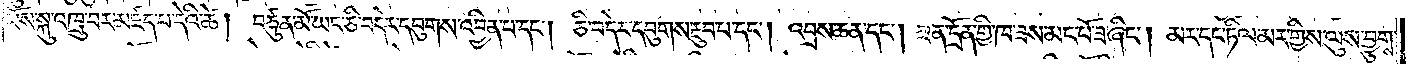པོས་སྐུ་འཁྲུ་བར་མཛད་པ་དེའི་ཚེ། བཙུན་མོ་ཡང་ཅི་བདེར་དབུགས་འབྱིན་པ་དང༌། ཅི་བདེར་དབུགས་རྔུབ་པ་དང༌། འབྲས་ཆན་དང༌། ཟན་དྲོན་གྱི་ཁ་ཟས་མང་པོ་ཟ་ཞིང༌། མར་དང་ཏིལ་མར་གྱིས་ལུས་བྱུགས་
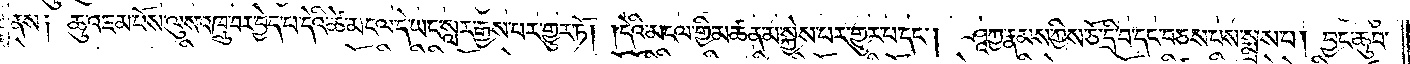ནས༑ ཆུ་འཇམ་པོས་ལུས་འཁྲུ་བར་བྱེད་པ་དེའི་ཚེ་མངལ་དེ་ཡང་སླར་རྒྱས་པར་གྱུར་ཏོ། །དེའི་མངལ་གྱི་མཚན་མ་སྐྱེས་པར་གྱུར་པ་དང༌། ཤཱཀྱ་རྣམས་ཀྱིས་ཅོ་དྲི་བ་དང་བཅས་པས་སྨྲས་པ། བྱང་ཆུབ་
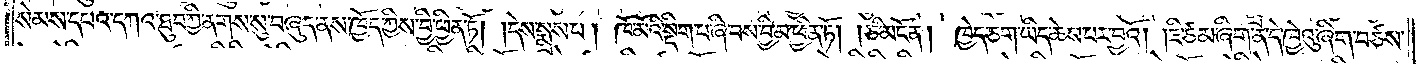སེམས་དཔའ་དཀའ་ཐུབ་ཀྱི་ནགས་སུ་བཞུད་ནས་ཁྱོད་ཀྱིས་བྱི་ཕྱིན་ཏོ། །དེས་སྨྲས་པ། ཁོ་མོའི་སྡིག་པ་ཞི་བས་བྱི་མ་ཕྱིན་ཏོ། །ཅི་མངོན། ཁྱེད་ཅག་ཡིད་ཆེས་པར་བྱའོ། །ཇི་ཙམ་ཞིག་ན་དེ་ཁྱེའུ་ཞིག་བཙས་
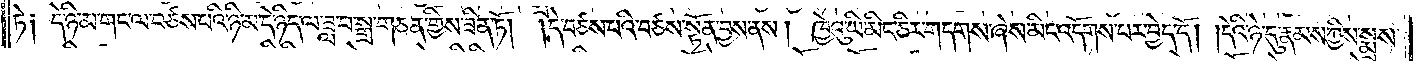ཏེ། དེ་ཉི་མ་གང་ལ་བཙས་པའི་ཉི་མ་དེ་ཉིད་ལ་ཟླ་བ་སྒྲ་གཅན་གྱིས་ཟིན་ཏོ། །དེ་བཙས་པའི་བཙས་སྟོན་བྱས་ནས། ཁྱེའུ་ཡི་མིང་ཅིར་གདགས་ཞེས་མིང་འདོགས་པར་བྱེད་དོ། །དེའི་ཉེ་དུ་རྣམས་ཀྱིས་སྨྲས་
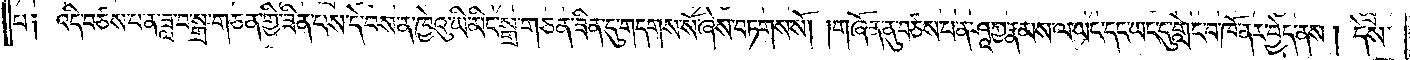པ། འདི་བཙས་པ་ན་ཟླ་བ་སྒྲ་གཅན་གྱི་ཟིན་པས་དེ་བས་ན་ཁྱེའུ་ཡི་མིང་སྒྲ་གཅན་ཟིན་དུ་གདགས་སོ་ཞེས་བཏགས་སོ། །གཞོན་ནུ་བཙས་པ་ན་ཤཱཀྱ་རྣམས་ལ་ཡང་དང་ཡང་དུ་གླེང་བ་ཁོ་ནར་བྱེད་ནས། དེས་
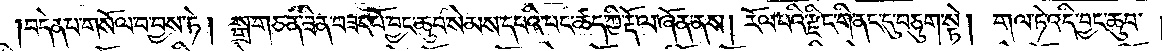བདེན་པ་གསོལ་བ་བྱས་ཏེ། སྒྲ་གཅན་ཟིན་བཟང་པོ་བྱང་ཆུབ་སེམས་དཔའི་པང་ཚད་ཀྱི་རྡོ་ལ་ཞོན་ནས། རོལ་པའི་རྫིང་གི་ནང་དུ་བཅུག་སྟེ། གལ་ཏེ་འདི་བྱང་ཆུབ་
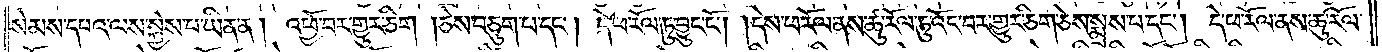སེམས་དཔའ་ལས་སྐྱེས་པ་ཡིན་ན། འཕྱོ་བར་གྱུར་ཅིག །ཅེས་བཅུག་པ་དང༌། དེ་ཕ་རོལ་ཏུ་བྱུང་ངོ༌། །དེས་ཕ་རོལ་ནས་ཚུ་རོལ་ཏུ་འོང་བར་གྱུར་ཅིག་ཅེས་སྨྲས་པ་དང༌། དེ་ཕ་རོལ་ནས་ཚུ་རོལ་
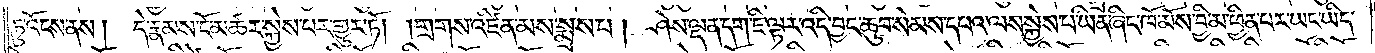ཏུ་འོངས་ནས། དེ་རྣམས་ངོ་མཚར་སྐྱེས་པར་གྱུར་ཏོ། །གྲགས་འཛིན་མས་སྨྲས་པ། ཤེས་ལྡན་དག་ཇི་ལྟར་འདི་བྱང་ཆུབ་སེམས་དཔའ་ལས་སྐྱེས་པ་ཡིན་ཞིང་ཁོ་མོས་བྱི་མ་ཕྱིན་པར་ཡང་ཡིད་
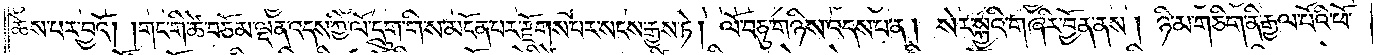ཆེས་པར་བྱའོ། །གང་གི་ཚེ་བཅོམ་ལྡན་འདས་ཀྱི་ལོ་དྲུག་གིས་མངོན་པར་རྫོགས་པར་སངས་རྒྱས་ཏེ། ལོ་བཅུ་གཉིས་འདས་པ་ན། སེར་སྐྱའི་གཞིར་བྱོན་ནས། ཉི་མ་གཅིག་ནི་རྒྱལ་པོའི་ཕོ་
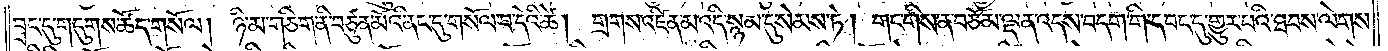བྲང་དུ་གདུགས་ཚོད་གསོལ། ཉི་མ་གཅིག་ནི་བཙུན་མོའི་ནང་དུ་གསོལ་བ་དེའི་ཚེ། གྲགས་འཛིན་མ་འདི་སྙམ་དུ་སེམས་ཏེ། གང་གིས་ན་བཅོམ་ལྡན་འདས་བདག་གི་དབང་དུ་གྱུར་པའི་ཐབས་ལེགས་
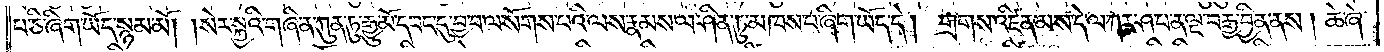པ་ཅི་ཞིག་ཡོད་སྙམ་མོ། །སེར་སྐྱའི་གཞི་ན་ཀུན་ཏུ་རྒྱུ་མོ་དབང་དུ་བྱ་བ་ལ་སོགས་པའི་ལས་རྣམས་ལ་ཤིན་ཏུ་མཁས་པ་ཞིག་ཡོད་དེ། གྲགས་འཛིན་མས་དེ་ལ་ཀར་ཤ་པ་ན་ལྔ་བརྒྱ་བྱིན་ནས། ཆེ་ཞེ་
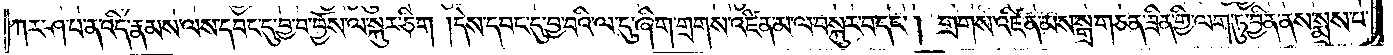ཀར་ཤ་པ་ན་འདི་རྣམས་ལས་དབང་དུ་བྱ་བ་བྱོས་ལ་སྐུར་ཅིག །དེས་དབང་དུ་བྱ་བའི་ལ་དུ་ཞིག་གྲགས་འཛིན་མ་ལ་བསྐུར་བ་དང༌། གྲགས་འཛིན་མས་སྒྲ་གཅན་ཟིན་གྱི་ལག་ཏུ་བྱིན་ནས་སྨྲས་པ་
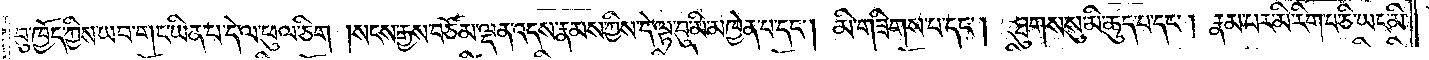བུ་ཁྱོད་ཀྱིས་ཡབ་གང་ཡིན་པ་དེ་ལ་ཕུལ་ཅིག །སངས་རྒྱས་བཅོམ་ལྡན་འདས་རྣམས་ཀྱིས་དེ་ལྟ་བུ་མི་མཁྱེན་པ་དང༌། མི་གཟིགས་པ་དང༌། ཐུགས་སུ་མི་ཆུད་པ་དང༌། རྣམ་པར་མི་རིག་པ་ཅི་ཡང་མི་
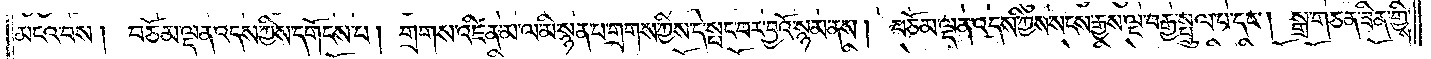མངའ་བས། བཅོམ་ལྡན་འདས་ཀྱིས་དགོངས་པ། གྲགས་འཛིན་མ་ལ་མི་སྙན་པ་གྲགས་ཀྱིས་དེ་སྤང་བར་བྱའོ་སྙམ་ནས། བཅོམ་ལྡན་འདས་ཀྱིས་སངས་རྒྱས་ལྔ་བརྒྱ་སྤྲུལ་པ་དང༌། སྒྲ་གཅན་ཟིན་གྱིས་
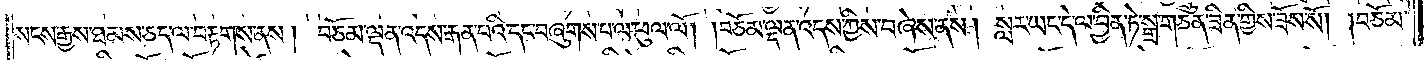སངས་རྒྱས་ཐམས་ཅད་ལ་བརྟགས་ནས། བཅོམ་ལྡན་འདས་རྒན་པའི་དང་བཞུགས་པ་ལ་ཕུལ་ལོ། །བཅོམ་ལྡན་འདས་ཀྱིས་བཞེས་ནས། སླར་ཡང་དེ་ལ་བྱིན་ཏེ་སྒྲ་གཅན་ཟིན་གྱིས་ཟོས་སོ། །བཅོམ་
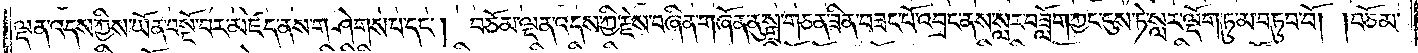ལྡན་འདས་ཀྱིས་ཡོན་བསྔོ་བར་མཛད་ནས་གཤེགས་པ་དང༌། བཅོམ་ལྡན་འདས་ཀྱི་རྗེས་བཞིན་གཞོན་ནུ་སྒྲ་གཅན་ཟིན་བཟང་པོ་འབྲང་ནས་སླར་བཟློག་ཀྱང་ངུས་ཏེ་སླར་ལྡོག་ཏུ་མ་བཏུབ་བོ། །བཅོམ་
